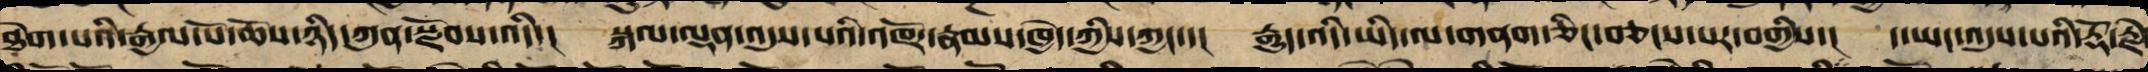ཐེག་པའི་རྒྱལ་པོ་ཆོས་ཉིད་ཀུན་སྫོབས་འདི་། སྐལ་ལྡན་འདུས་པའི་འཁོར་རྣམས་ཁྱེད་ཀྱིས་ཀྱང་་། རྒྱུད་འདི་ཡིད་ལ་བརྣགས་ཤིང་བཅང་བར་གྱིས་། ད་ཡང་འདུས་པའི་རྡོ་རྗེ་
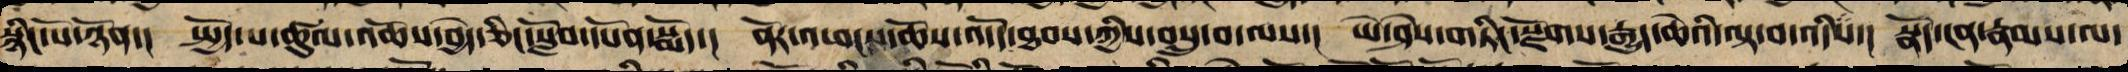སྙིང་པོ་ཉོན་། སྤྱོད་པ་ཚུལ་འཆོས་བྱེད་ཅིང་སློབ་དཔོན་སྨོད་། ནོར་ཕངས་ཆོས་འདོད་ཐབས་ཀྱིས་བསྲུ་བ་ལ་། ཡེ་ཤེས་གཏིང་སྫོགས་རྒྱུད་ཆེན་ལྟ་བ་འདི་། སྣོད་ངན་རྣམས་ལ་
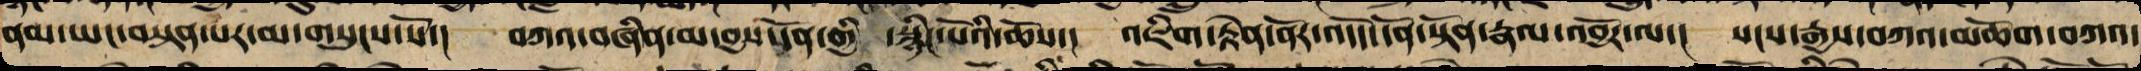ནམ་ཡང་བསྟན་པར་མ་གསུངས་སོ་། བཀའ་བཞིན་མ་བྱས་དོན་གྱི་སྙིང་པོའི་ཆོས་། འཇིག་རྟེན་ནོར་འདོད་དོན་སྟོན་རྣལ་འབྱོར་ལ་། སངས་རྒྱས་བཀའ་མཆོག་བཀའ་
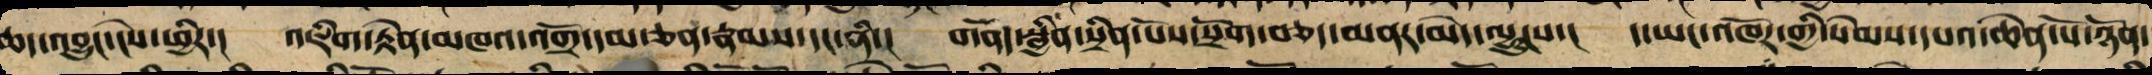ཆད་འབྱུང་ངེས་ཕྱིར་། འཇིག་རྟེན་མཁའ་འགྲོ་དམ་ཅན་རྣམས་དང་ནི་། གནོད་སྦྱིན་སྲིན་པོས་སྲོག་བཅད་མནར་མེད་ལྟུང་་། ད་ཡང་འཁོར་གྱི་སེམས་དཔའ་ཡིད་ཀྱིས་ཉོན་
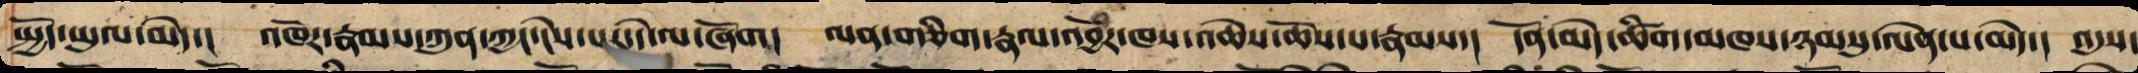སྤྱོད་ཡུལ་མེད་། འཁོར་རྣམས་ཀུན་ཀྱང་ངེས་པ་དེ་ལ་ཞོག། ལན་ཅིག་རྣལ་འབྱོར་ཁས་འཆེས་ཆོས་པ་རྣམས་། དོན་མེད་ཚིག་མཁས་ཉམས་སུ་ལེན་པ་མེད་། འདུས་
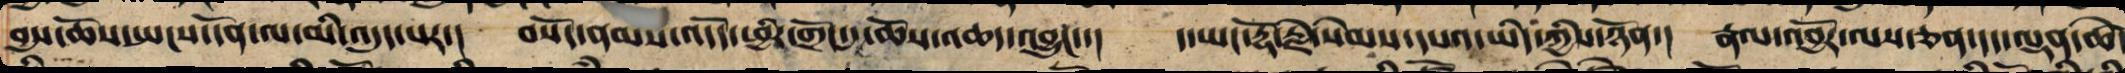བྱས་ཆོས་སྤངས་དོན་ལ་མི་འདུད་པར་། བསོད་ནམས་འདོད་ཕྱིར་གྲོང་དུ་ཆོས་འཆད་འབྱུང་་། ད་ཡང་རྡོ་རྗེ་སེམས་དཔའ་ཡིད་ཀྱིས་ཉོན་། རྣལ་འབྱོར་ལས་ཅན་དད་ལྡན་ཚེ་
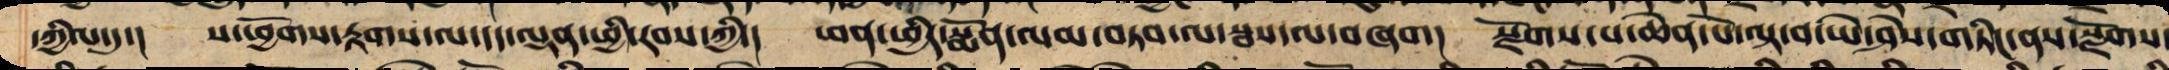དཀྱིལ་དུ་། ས་ཕྱོགས་རྟགས་ལ་དད་ལྡན་ཕྱི་རབས་ལ་། ཕན་ཕྱིར་སྨོན་ལམ་བཏབ་ལ་སྦས་ལ་བཞག། སྫོགས་པ་ཆེན་པོ་ཡེ་ཤེས་གཏིང་ནས་སྫོགས་
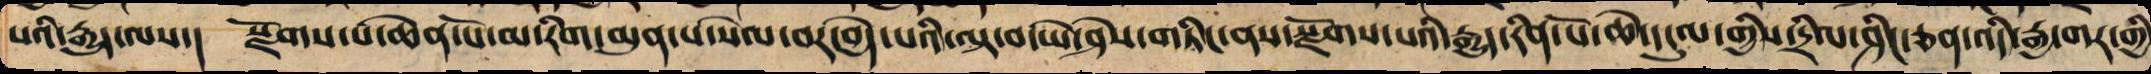པའི་རྒྱུད་ལས་། སྫོགས་པ་ཆེན་པོ་མ་རིག་མུན་པ་སེལ་བར་བྱེད་པའི་ལྟ་བ་ཡེ་ཤེས་གཏིང་ནས་སྫོགས་པའི་རྒྱུད་རིན་པོ་ཆེ་དངུལ་གྱི་དྲིལ་ཤིང་ཅན་འདི་རྒྱ་གར་གྱི
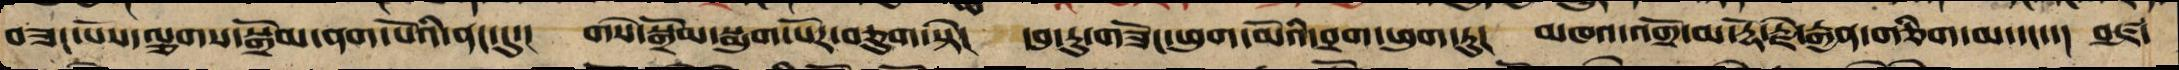བཟང་པོས་ལྕགས་སྒྲོམ་ནག་པོའི་ནང་དུ་། བསེ་སྒྲོམ་སྨུག་པོར་བཅུག་སྟེ་། དབུ་རུ་གཟོང་ཕུག་མོའི་བྲག་ཕུག་ཏུ་། མཁའ་འགྲོ་མ་རྡོ་རྗེ་རྒྱན་གཅིག་མ་དང་།་ བཛྲ་
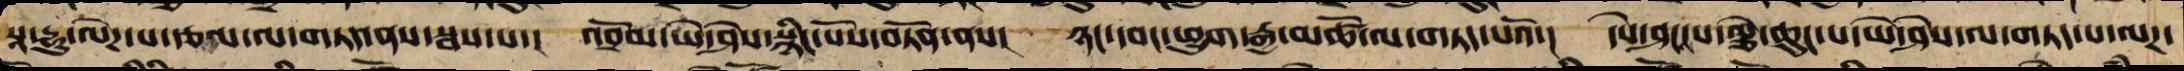སཱ་དྷུ་ལེཌ་པ་རྩལ་ལ་གཏད་ནས་སྦས་པ་། འབྲོམ་ཡེ་ཤེས་སྙིང་པོས་བཏོན་ནས་། ཉང་དབང་ཕྱུག་རྒྱ་མཚོ་ལ་གཏད་པའོ་། དེས་ཤངས་པ་ལྕེ་ཆུང་བ་ཡེ་ཤེས་ལ་གཏད་པ་ལཌ་
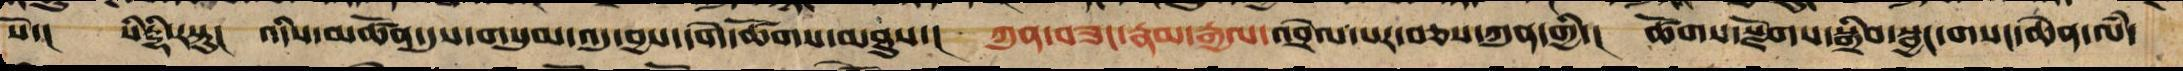སོ་།། །སིདྡྷི་རསྟུ། འདིས་མཚོན་དུས་གསུམ་འདུ་བྱས་དགེ་ཚོགས་མཐུས་། ཀུན་བཟང་རྣམ་རྒྱལ་འབྲེལ་པར་བཅས་ཀུན་གྱི་། ཚོགས་རྫོགས་སྒྲིབ་སྦྱང་གསང་ཆེན་ལཾ་
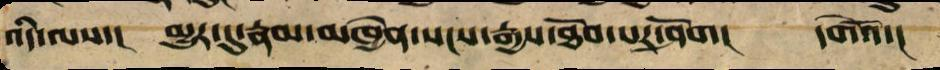འདི་ལས་། མྱུར་དུ་རྣམ་མཁྱེན་སངས་རྒྱས་ཐོབ་པར་ཤོག། དགེའོ་།
